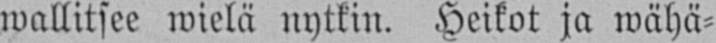wallitsee wielä nytkin. Heikot ja wähä-
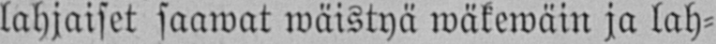lahjaiset saawat wäistyä wäkewäin ja lah-
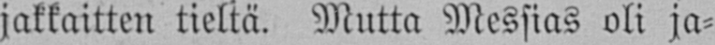jakkaitten tieltä. Mutta Messias oli ja-
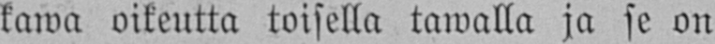kawa oikeutta toisella tawalla ja se on
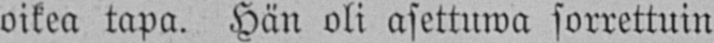oikea tapa. Hän oli asettuwa sorrettuin
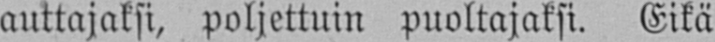auttajaksi, poljettuin puoltajaksi. Eikä
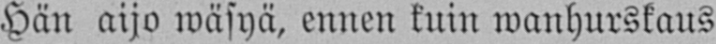Hän aijo wäsyä, ennen kuin wanhurskaus
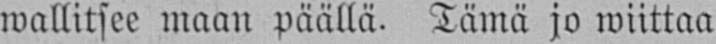wallitsee maan päällä. Tämä jo wiittaa
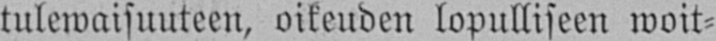tulewaisuuteen, oikeuden lopulliseen woit-
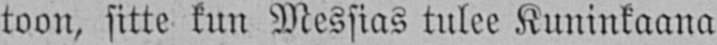toon, sitte kun Messias tulee Kuninkaana
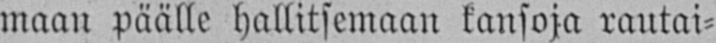maan päälle hallitsemaan kansoja rautai-
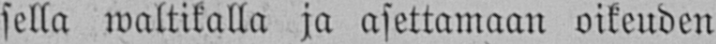sella waltikalla ja asettamaan oikeuden
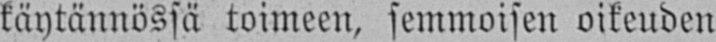käytännössä toimeen, semmoisen oikeuden
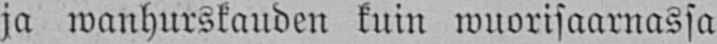ja wanhurskauden kuin wuorisaarnassa
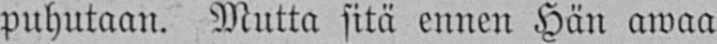puhutaan. Mutta sitä ennen Hän awaa
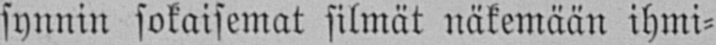synnin sokaisemat silmät näkemään ihmi-
